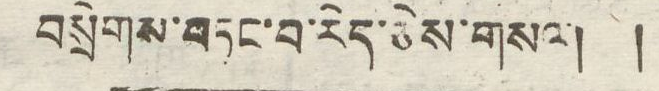བསྲེགས་བཏང་བ་རེད་ཅེས་གསལ། །
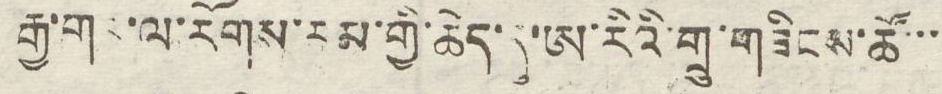རྒྱ་གར་ལ་རོགས་རམ་གྱི་ཆེད་དུ་ཨ་རིའི་གྲུ་གཟིངས་ཚོ་་་
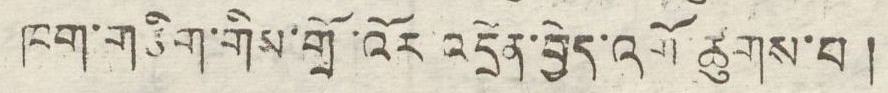ཁག་གཅིག་གིས་གྲོ་འོར འདྲེན་བྱེད་འགྲོ ཚུགས་པ།
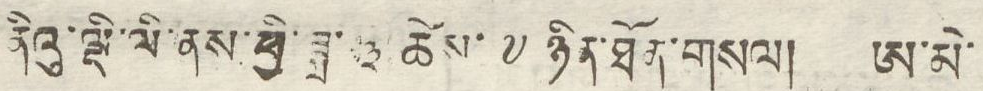ནིའུ་ལྡི་ལི་ནས་ཕྱི་ཟླ་ ༣ ཚེས་ ༧ ཉིན་ཐོན་གསལ། ཨ་མེ་
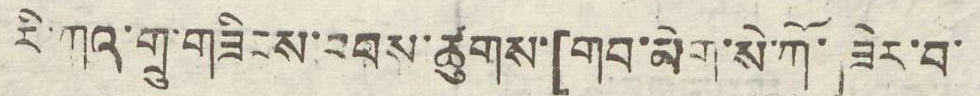རི་ཀའི་གྲུ་གཟིངས་འབས་ཚུགས་[གབ་མེག་སེ་ཀོ་ ཟེར་བ་
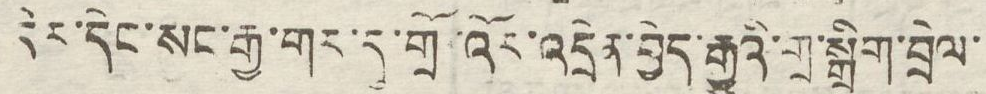དེར་དེང་སང་རྒྱ་གར་དུ་གྲོ་འོར་འདྲེན་བྱེད་རྒྱུའི་གྲ་སྒྲིག་བྲེལ་
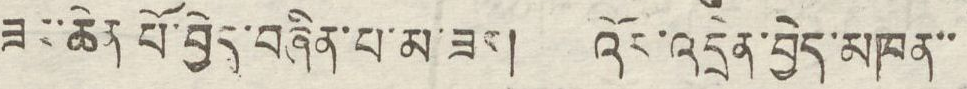ཟང་ཆེན་པོ་བྱེད་བཞིན་པ་མ་ཟད། འོར་འདྲེན་བྱེད་མཁན་་
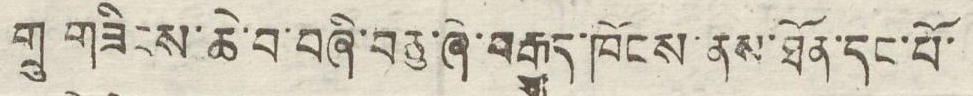གྲུ གཟིངས་ཆེ་བ་བཞི་བཅུ་ཞེ་བརྒྱུད་ཁོངས་ནས་ཐོན་དང་པོ་
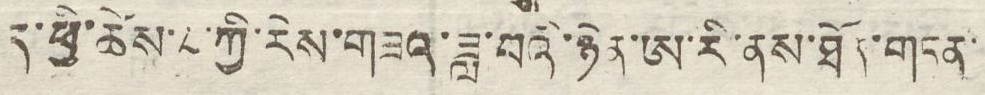ད་ཕྱི་ཚེས་༨་ཀྱི་རེས་གཟའ་ཟླ་བའི་ཉིན་ཨ་རི་ནས་ཐོན་གཏན་
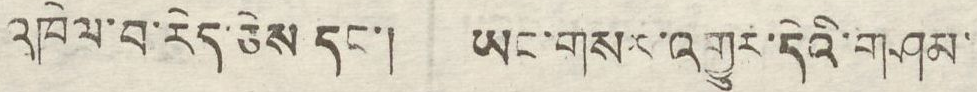འཁེལ་བ་རེད་ཅེས དང་། ཡང་གསར་འགྱུར་དེའི་གཤམ་
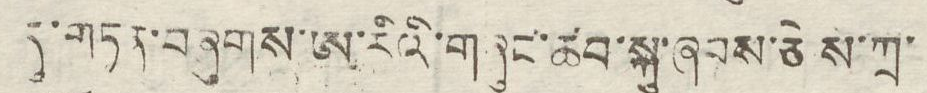དུ་གཏན་བཞུགས་ཨ་རིའི་གཞུང་ཚབ་སྐུ་ཞབས་ཅེས་ཀྲ་
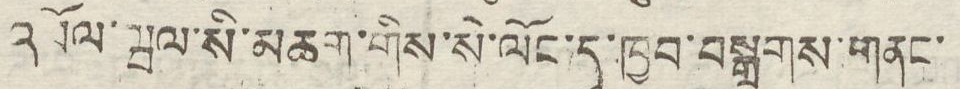འབོལ་ཝལ་སི་མཆག་གིས་སེ་ལོང་དུ་ཁྱབ་བསྒྲགས་གནང་
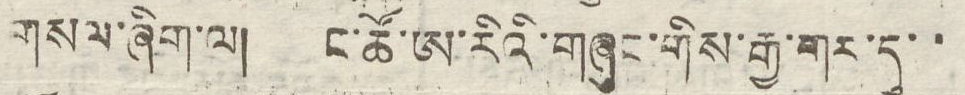གསལ་ཞིག་ལ། ང་ཚོ་ཨ་རིའི་གཞུང་གིས་རྒྱ་གར་དུ་་
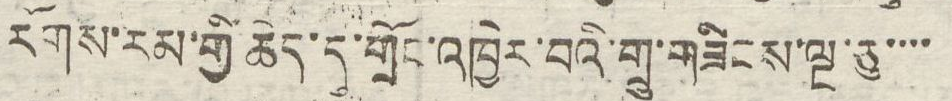རོགས་རམ་གྱི ཆེད་དུ་གྲོང་འཁྱེར་བའི་གྲུ་གཟིངས་ལྔ་ཅུ་་་་
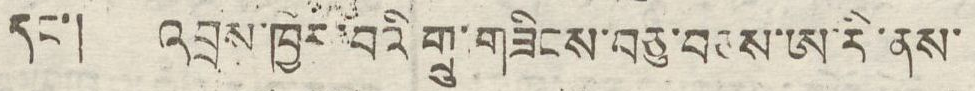དང་། འབྲས་ཁྱེར་བའི་གྲུ་གཟིངས་བཅུ་བཅས་ཨ་རི་ནས་
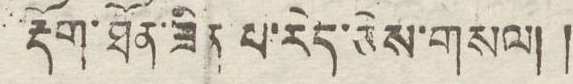རྡོག་ཐོན་ཟིན པ་རེད་ཅེས་གསལ། །
